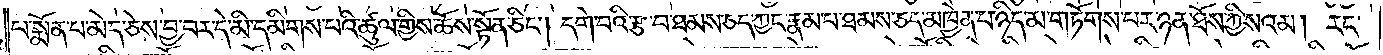པ་སྨོན་པ་མེད་ཅེས་བྱ་བར་དེ་མི་དམིགས་པའི་ཚུལ་གྱིས་ཆོས་སྟོན་ཅིང༌། དགེ་བའི་རྩ་བ་ཐམས་ཅད་ཀྱང་རྣམ་པ་ཐམས་ཅད་མཁྱེན་པ་ཉིད་མ་གཏོགས་པར་ཉན་ཐོས་ཀྱི་སའམ། རང་
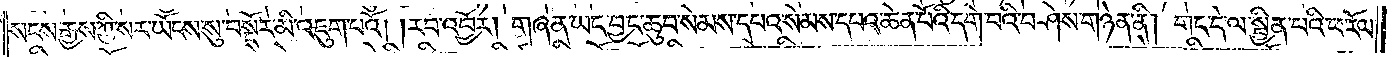སངས་རྒྱས་ཀྱི་སར་ཡོངས་སུ་བསྔོར་མི་འཇུག་པའོ། །རབ་འབྱོར། གཞན་ཡང་བྱང་ཆུབ་སེམས་དཔའ་སེམས་དཔའ་ཆེན་པོའི་དགེ་བའི་བཤེས་གཉེན་ནི། གང་དེ་ལ་སྦྱིན་པའི་ཕ་རོལ་
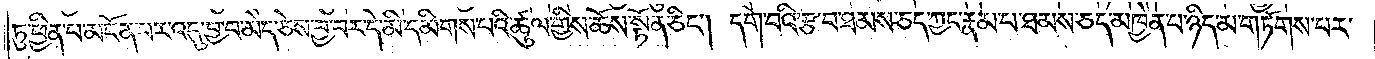ཏུ་ཕྱིན་པ་མངོན་པར་འདུ་བྱ་བ་མེད་ཅེས་བྱ་བར་དེ་མི་དམིགས་པའི་ཚུལ་གྱིས་ཆོས་སྟོན་ཅིང༌། དགེ་བའི་རྩ་བ་ཐམས་ཅད་ཀྱང་རྣམ་པ་ཐམས་ཅད་མཁྱེན་པ་ཉིད་མ་གཏོགས་པར་
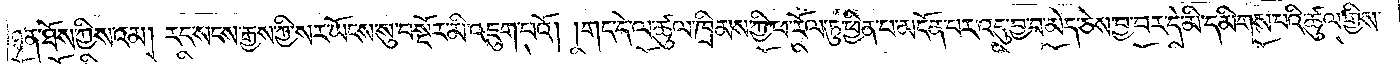ཉན་ཐོས་ཀྱི་སའམ། རང་སངས་རྒྱས་ཀྱི་སར་ཡོངས་སུ་བསྔོར་མི་འཇུག་པའོ། །གང་དེ་ལ་ཚུལ་ཁྲིམས་ཀྱི་ཕ་རོལ་ཏུ་ཕྱིན་པ་མངོན་པར་འདུ་བྱ་བ་མེད་ཅེས་བྱ་བར་དེ་མི་དམིགས་པའི་ཚུལ་གྱིས་
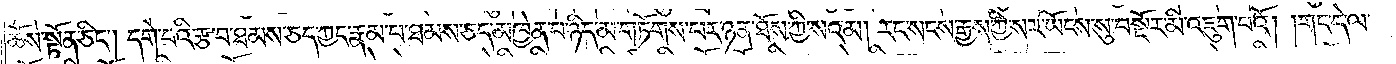ཆོས་སྟོན་ཅིང༌། དགེ་བའི་རྩ་བ་ཐམས་ཅད་ཀྱང་རྣམ་པ་ཐམས་ཅད་མཁྱེན་པ་ཉིད་མ་གཏོགས་པར་ཉན་ཐོས་ཀྱི་སའམ། རང་སངས་རྒྱས་ཀྱི་སར་ཡོངས་སུ་བསྔོར་མི་འཇུག་པའོ། །གང་དེ་ལ་
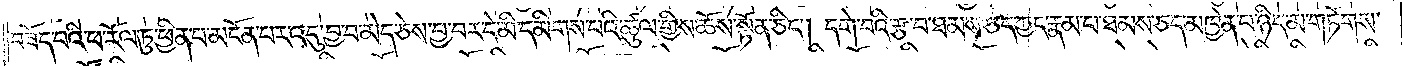བཟོད་པའི་ཕ་རོལ་ཏུ་ཕྱིན་པ་མངོན་པར་འདུ་བྱ་བ་མེད་ཅེས་བྱ་བར་དེ་མི་དམིགས་པའི་ཚུལ་གྱིས་ཆོས་སྟོན་ཅིང༌། དགེ་བའི་རྩ་བ་ཐམས་ཅད་ཀྱང་རྣམ་པ་ཐམས་ཅད་མཁྱེན་པ་ཉིད་མ་གཏོགས་
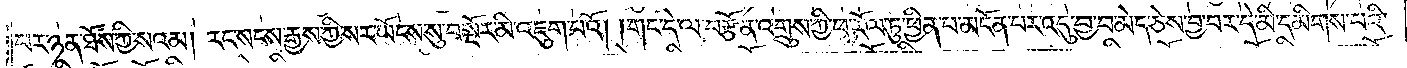པར་ཉན་ཐོས་ཀྱི་སའམ། རང་སངས་རྒྱས་ཀྱི་སར་ཡོངས་སུ་བསྔོར་མི་འཇུག་པའོ། །གང་དེ་ལ་བརྩོན་འགྲུས་ཀྱི་ཕ་རོལ་ཏུ་ཕྱིན་པ་མངོན་པར་འདུ་བྱ་བ་མེད་ཅེས་བྱ་བར་དེ་མི་དམིགས་པའི་
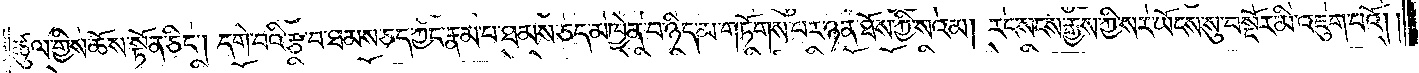ཚུལ་གྱིས་ཆོས་སྟོན་ཅིང༌། དགེ་བའི་རྩ་བ་ཐམས་ཅད་ཀྱང་རྣམ་པ་ཐམས་ཅད་མཁྱེན་པ་ཉིད་མ་གཏོགས་པར་ཉན་ཐོས་ཀྱི་སའམ། རང་སངས་རྒྱས་ཀྱི་སར་ཡོངས་སུ་བསྔོར་མི་འཇུག་པའོ། །
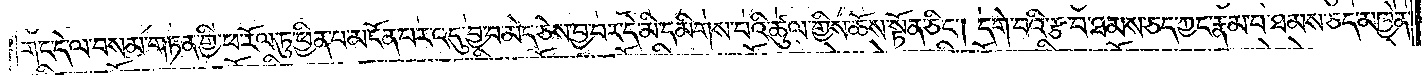གང་དེ་ལ་བསམ་གཏན་གྱི་ཕ་རོལ་ཏུ་ཕྱིན་པ་མངོན་པར་འདུ་བྱ་བ་མེད་ཅེས་བྱ་བར་དེ་མི་དམིགས་པའི་ཚུལ་གྱིས་ཆོས་སྟོན་ཅིང༌། དགེ་བའི་རྩ་བ་ཐམས་ཅད་ཀྱང་རྣམ་པ་ཐམས་ཅད་མཁྱེན་
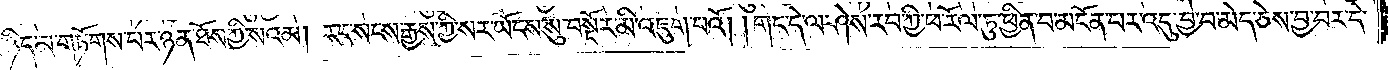པ་ཉིད་མ་གཏོགས་པར་ཉན་ཐོས་ཀྱི་སའམ། རང་སངས་རྒྱས་ཀྱི་སར་ཡོངས་སུ་བསྔོར་མི་འཇུག་པའོ། །གང་དེ་ལ་ཤེས་རབ་ཀྱི་ཕ་རོལ་ཏུ་ཕྱིན་པ་མངོན་པར་འདུ་བྱ་བ་མེད་ཅེས་བྱ་བར་དེ་
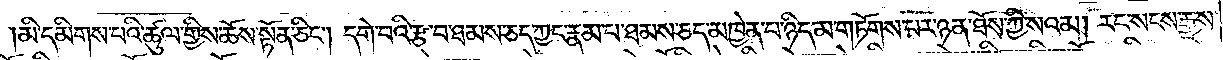མི་དམིགས་པའི་ཚུལ་གྱིས་ཆོས་སྟོན་ཅིང༌། དགེ་བའི་རྩ་བ་ཐམས་ཅད་ཀྱང་རྣམ་པ་ཐམས་ཅད་མཁྱེན་པ་ཉིད་མ་གཏོགས་པར་ཉན་ཐོས་ཀྱི་སའམ། རང་སངས་རྒྱས་
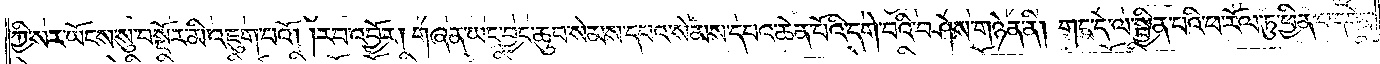ཀྱི་སར་ཡོངས་སུ་བསྔོར་མི་འཇུག་པའོ། །རབ་འབྱོར། གཞན་ཡང་བྱང་ཆུབ་སེམས་དཔའ་སེམས་དཔའ་ཆེན་པོའི་དགེ་བའི་བཤེས་གཉེན་ནི། གང་དེ་ལ་སྦྱིན་པའི་ཕ་རོལ་ཏུ་ཕྱིན་པ་དབེན་
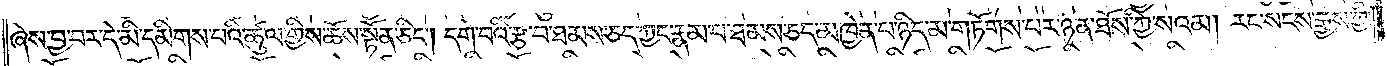ཞེས་བྱ་བར་དེ་མི་དམིགས་པའི་ཚུལ་གྱིས་ཆོས་སྟོན་ཅིང༌། དགེ་བའི་རྩ་བ་ཐམས་ཅད་ཀྱང་རྣམ་པ་ཐམས་ཅད་མཁྱེན་པ་ཉིད་མ་གཏོགས་པར་ཉན་ཐོས་ཀྱི་སའམ། རང་སངས་རྒྱས་ཀྱི་
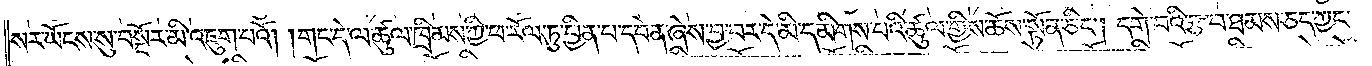སར་ཡོངས་སུ་བསྔོར་མི་འཇུག་པའོ། །གང་དེ་ལ་ཚུལ་ཁྲིམས་ཀྱི་ཕ་རོལ་ཏུ་ཕྱིན་པ་དབེན་ཞེས་བྱ་བར་དེ་མི་དམིགས་པའི་ཚུལ་གྱིས་ཆོས་སྟོན་ཅིང༌། དགེ་བའི་རྩ་བ་ཐམས་ཅད་ཀྱང་
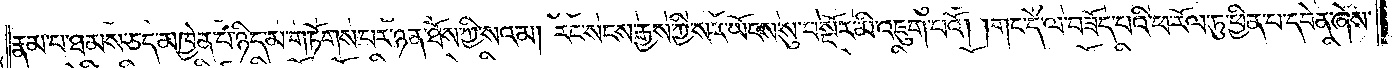རྣམ་པ་ཐམས་ཅད་མཁྱེན་པ་ཉིད་མ་གཏོགས་པར་ཉན་ཐོས་ཀྱི་སའམ། རང་སངས་རྒྱས་ཀྱི་སར་ཡོངས་སུ་བསྔོར་མི་འཇུག་པའོ། །གང་དེ་ལ་བཟོད་པའི་ཕ་རོལ་ཏུ་ཕྱིན་པ་དབེན་ཞེས་
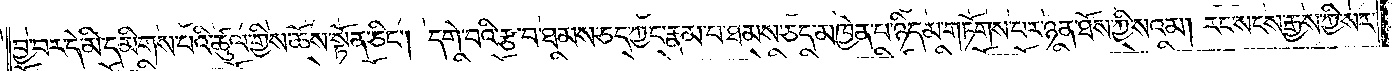བྱ་བར་དེ་མི་དམིགས་པའི་ཚུལ་གྱིས་ཆོས་སྟོན་ཅིང༌། དགེ་བའི་རྩ་བ་ཐམས་ཅད་ཀྱང་རྣམ་པ་ཐམས་ཅད་མཁྱེན་པ་ཉིད་མ་གཏོགས་པར་ཉན་ཐོས་ཀྱི་སའམ། རང་སངས་རྒྱས་ཀྱི་སར་
